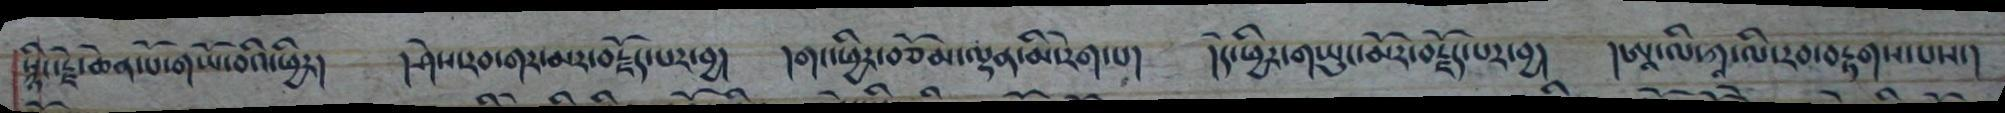སྙིང་རྗེ་ཆེན་པོ་གཡོ་བའི་ཕྱིར། །ཤེས་རབ་གར་མར་བརྗོད་པར་བྱ། །གང་ཕྱིར་བཅོམ་ལྡན་མི་རེག་པ། །དེ་ཕྱིར་གཡུང་མོར་བརྗོད་པར་བྱ། །ཨཱ་ལི་ཀཱ་ལི་རབ་བརྟགས་པས་།
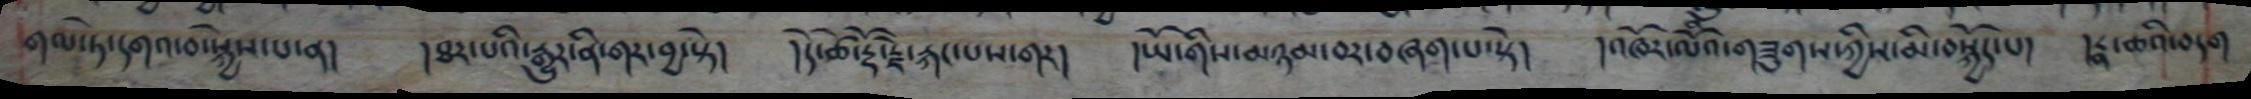གལ་ཏེ་དགའ་བ་སྐྱེས་པ་ན། །ཐར་པའི་རྒྱུར་ནི་གར་བྱ་སྟེ། །དེ་ཚེ་རྡོ་རྗེ་རྐང་པས་གར། །ཡོ་གིས་མཉམ་བར་བཞག་པ་སྟེ། །འཁོར་ལོའི་གཟུགས་ཀྱིས་མི་བསྐྱོད་པ། །རྣ་ཆའི་བདག
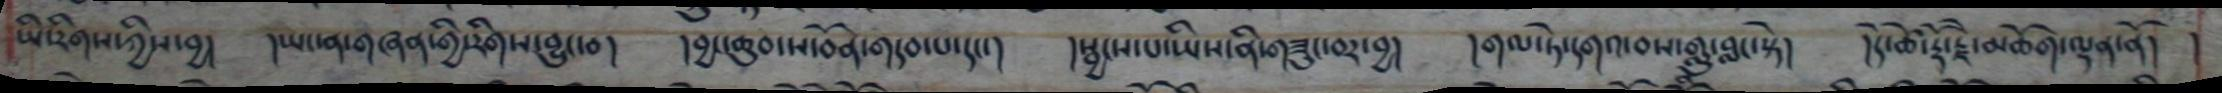ཡི་རིགས་ཀྱིས་བྱ། །ཡང་ན་གཞན་གྱི་རིགས་བྱུང་བ། །བྱང་ཆུབ་ས་བོན་གདབ་པ་དང་། །སྦྱངས་པ་ཡིས་ནི་གཟུང་བར་བྱ། །གལ་ཏེ་དགའ་བས་གླུ་བླང་སྟེ། །དེ་ཚེ་རྡོ་རྗེ་མཆོག་ལྡན་ནོ། །
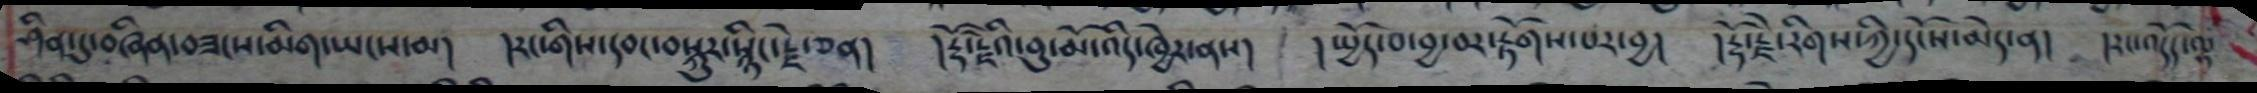ཤིན་དུ་བཞིན་བཟངས་མིག་ཡངས་མ། །རང་གིས་དབང་བསྐུར་སྙིང་རྗེ་ཅན། །རྡོ་རྗེའི་བུ་མོ་འདི་ཁྱེར་ནས། །སྤྱོད་པ་བྱ་བར་རྟོགས་པར་བྱ། །རྡོ་རྗེ་རིགས་ཀྱི་དངོས་མེད་ན། །རང་འདོད་ལྷ
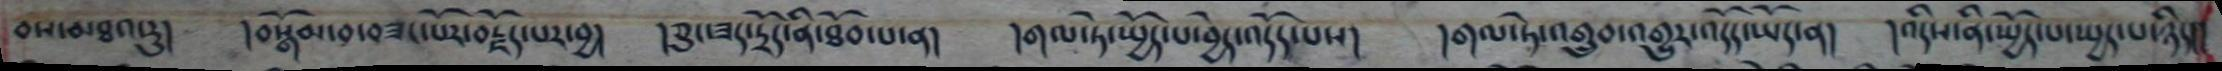བས་མཐའ་རུ། །བསྒོམ་བ་བཟང་པོར་བརྗོད་པར་བྱ། །ཅུང་ཟད་དྲོད་ནི་ཐོབ་པ་ན། །གལ་ཏེ་སྤྱོད་པ་བྱེད་འདོད་པས། །གལ་ཏེ་འགྲུབ་འགྱུར་འདོད་ཡོད་ན། །འདིས་ནི་སྤྱོད་པ་སྤྱད་པ་ཉིད།།
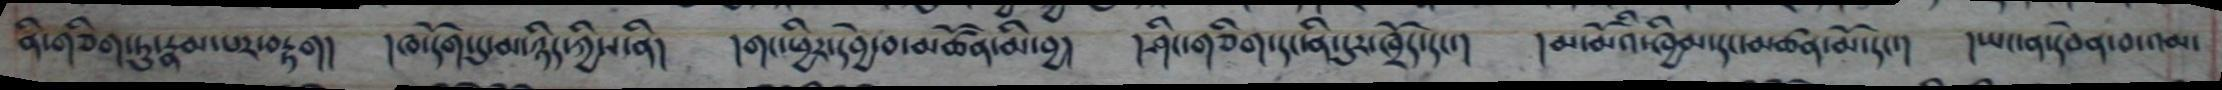ནི་གཅིག་ཏུ་རྣམ་པར་བརྟག། །ཁ་དོག་དུ་མ་ཉིད་ཀྱིས་ནི། །གང་ཕྱིར་དབྱེ་བ་མཚོན་མི་བྱ། །ཤིང་གཅིག་དང་ནི་དུར་ཁྲོད་དང་། །མ་མོའི་ཁྱིམ་དང་མཚན་མོ་དང་། །ཡང་ན་དབེན་བ་འམ་
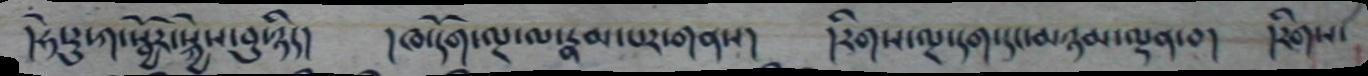།ཧེ་རུ་ཀ་སྦྱོར་སྐྱེས་བུ་ཉིད། །ཁ་དོག་ལྔ་ལ་རྣམ་པར་གནས། །རིགས་ལྔ་དག་དང་མཉམ་ལྡན་བ། །རིགས་
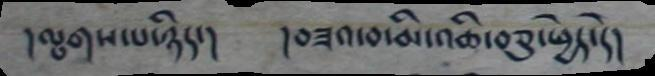།ལྤགས་པ་ཉིད། །བཟའ་བ་མི་འཆི་བཅུ་ཕྱེད་དེ།
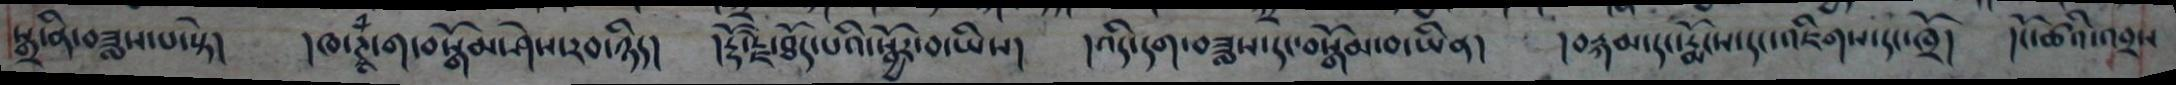སྒྲ་ནི་བཟླས་པ་སྟེ། །ཁ་ཊྭཱཾ་ག་བསྒོམ་ཤེས་རབ་ཉིད། །རྡོ་རྗེ་ཐོད་པའི་སྦྱོར་བ་ཡིས། །འདི་དག་བཟླས་དང་བསྒོམ་བ་ཡིན། །བརྐམ་དང་རྨོངས་དང་འཇིགས་དང་ཁྲོ། །ངོ་ཚའི་འབྲས
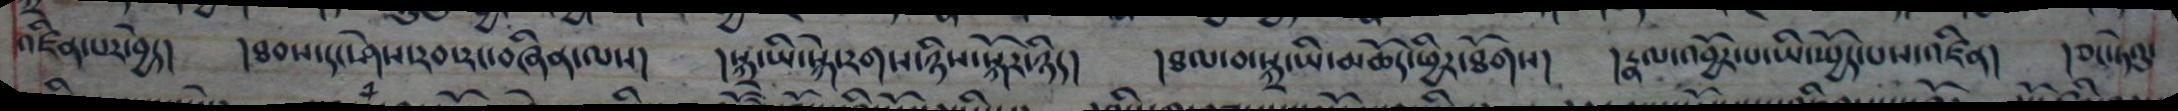འཛིན་པར་བྱེད། །ཐབས་དང་ཤེས་རབ་རང་བཞིན་ལས། །སྐྲ་ཡི་སྐེ་རགས་ཉིས་སྐོར་ཉིད། །ཐལ་བ་སྐྲ་ཡི་མཆོད་ཕྱིར་ཐོགས། །རྣལ་འབྱོར་པ་ཡི་སྤྱོད་པས་འཛིན། །ཅང་ཏེའུ་
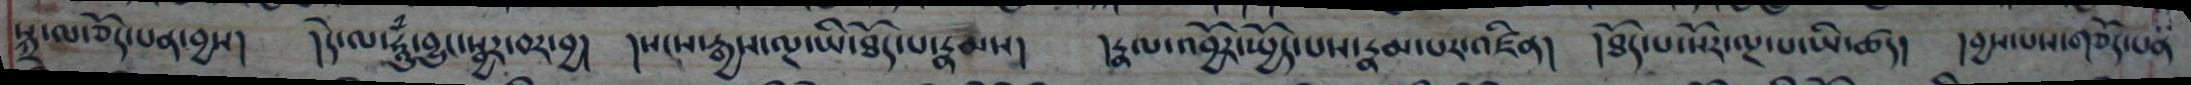སྐྲ་ལ་ཅོད་པན་བྱས། །དེ་ལ་ཧཱུཾ་བྱུང་སྦྱང་བར་བྱ། །སངས་རྒྱས་ལྔ་ཡི་ཐོད་པ་རྣམས། །རྣལ་འབྱོར་སྤྱོད་པས་རྣམ་པར་འཛིན། །ཐོད་པ་སོར་ལྔ་པ་ཡི་ཚད། །བྱས་པས་གཅོད་པན
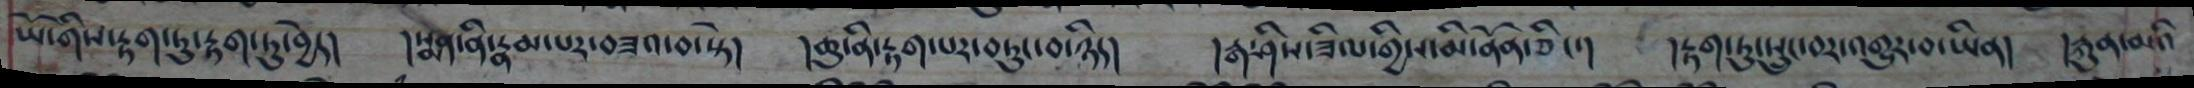ཡོ་གིས་རྟག་ཏུ་རྟག་ཏུ་བྱེད། །སྨན་ནི་རྣམ་པར་བཟའ་བ་སྟེ།  །ཆུ་ནི་རྟག་པར་བཏུང་བ་ཉིད། །རྒ་ཤིས་ཟིལ་གྱིས་མི་ནོན་ཅིང་། །རྟག་ཏུ་སྲུང་བར་འགྱུར་བ་ཡིན། །རྐུན་མའི
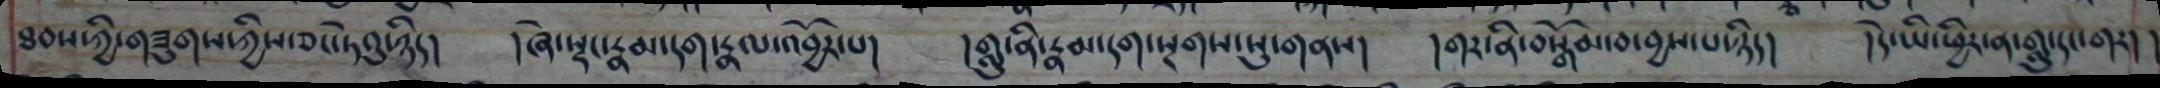ཐབས་ཀྱི་གཟུགས་ཀྱིས་ཅང་ཏེའུ་ཉིད། །ཞེ་སྡང་རྣམ་དག་རྣལ་འབྱོར་པ། །གླུ་ནི་རྣམ་དག་སྔགས་སུ་གནས། །གར་ནི་བསྒོམ་བ་བྱས་པ་ཉིད། །དེ་ཡི་ཕྱིར་ན་གླུ་དང་གར། །
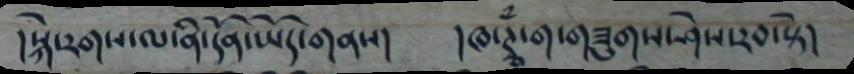།སྐེ་རགས་ལ་ནི་དོན་ཡོད་གནས། །ཁ་ཊྭཱཾ་ག་གཟུགས་ཤེས་རབ་སྟེ།
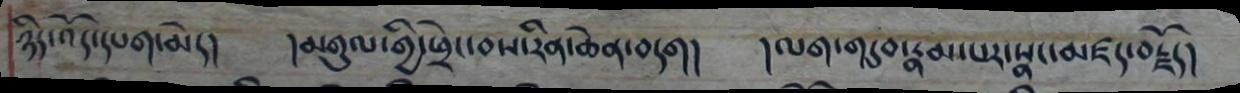ཉིད་འོད་དཔག་མེད། །མགུལ་གྱི་ཕྲེང་བས་རིན་ཆེན་བདག། །ལག་གདུབ་རྣམ་པར་སྣང་མཛད་བརྗོད།
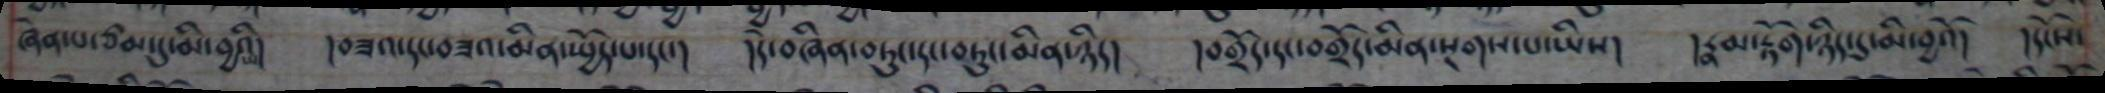ཞེན་པ་ཙམ་དུ་མི་བྱའི། །བཟའ་དང་བཟའ་མིན་སྤྱོད་པ་དང་། །དེ་བཞིན་བཏུང་དང་བཏུང་མིན་ཉིད། །བགྲོད་དང་བགྲོད་མིན་སྔགས་པ་ཡིས། །རྣམ་རྟོག་ཉིད་དུ་མི་བྱའོ། །དངོས་
